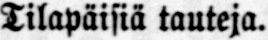Tilapäisiä tauteja.
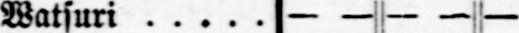Watsuri — — — — — — — —
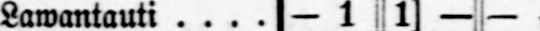Lawantauti — 1 1] — — — — —
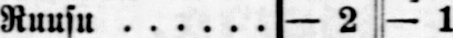Ruusu — 2, — 1 — — — —
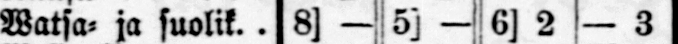Watsa- ja suolik 8] — 5] — 6] 2 — 3
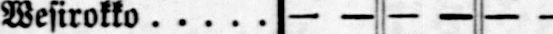Wesirokko — — — — — — 2] 1
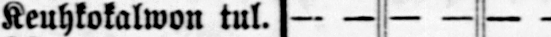Keuhkokalwon tul. — — — — — — — —
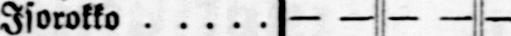Isorokko — — — — — — — —
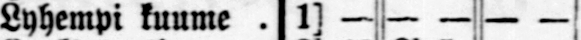Lyhempi kuume 1] — — — — — 1] —
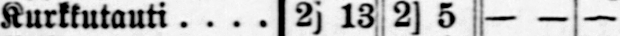Kurkkutauti 2] 13 2] 5 — — — 5
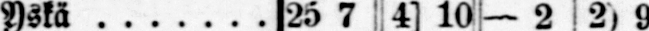Yskä 25 7 4] 10 — 2 2] 9
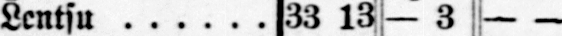Lentsu 33 13 — 3 — — 13 —
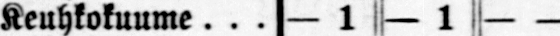Keuhkokuume — 1 — 1 — — — —
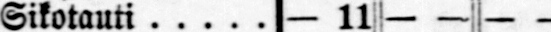Sikotauti — 11 — — — — — 3
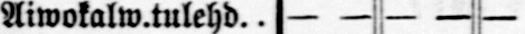Aiwokalw.tulehd — — — — — — — —
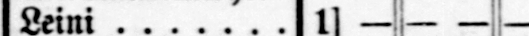Leini 1] — — — — — — —
